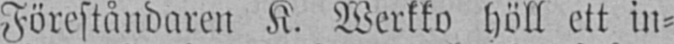Föreståndaren K. höll ett in-
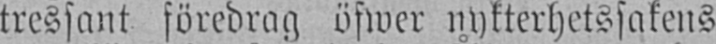tressant föredrag öfwer nykterhetssakens
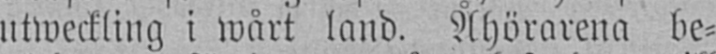utweckling i wårt land. Åhörarena be-
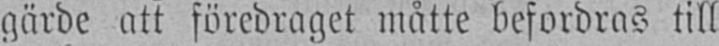gärde att föredraget måtte befordras till
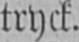tryck.
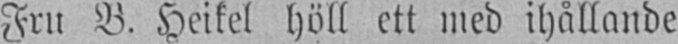Fru B. Heikel höll ett med ihållande
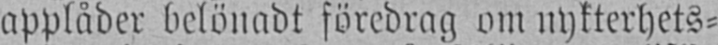applåder belönadt föredrag om nykterhets-
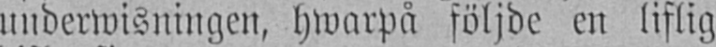underwisningen, hwarpå följde en liflig
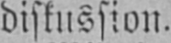diskussion.
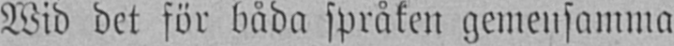Wid det för båda språken gemensamma
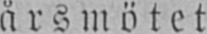årsmötet
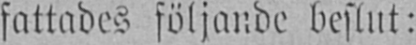fattades följande beslut:
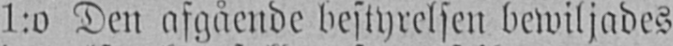1:o Den afgående bestyrelsen bewiljades
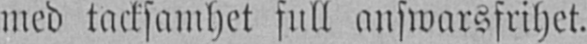med tacksamhet full answarsfrihet.
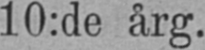10:de årg.
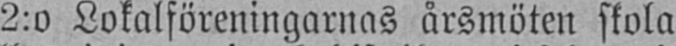2:o Lokalföreningarnas årsmöten skola
